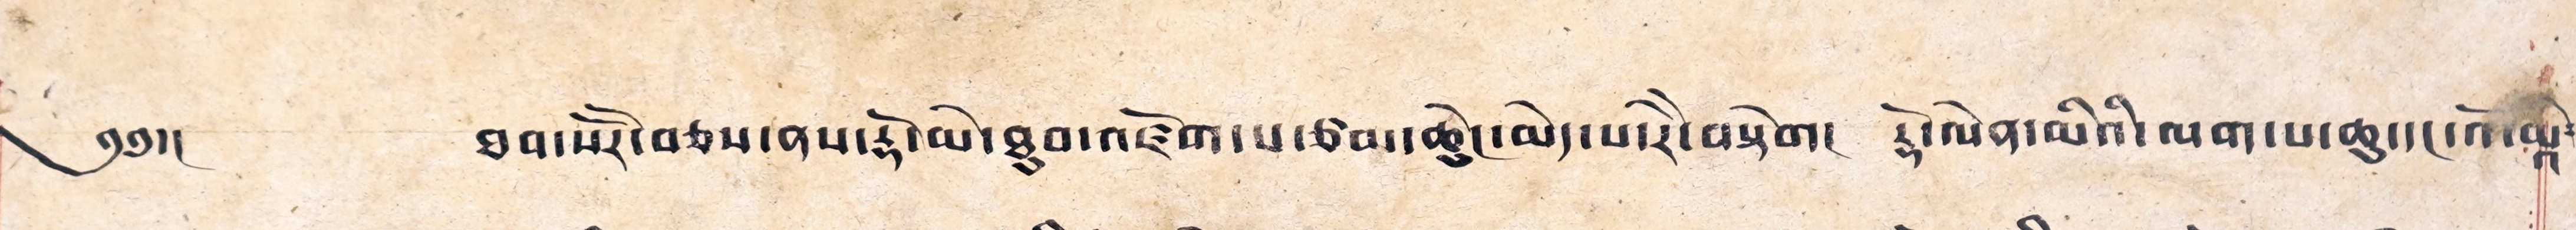༄༅།། ཐབ་སོ་སོར་བཅས་ནས་རྡོ་མེ་ཐུབ་འཛོག་པ་ཙབ་ཆེུང་མེད་པ་རེ་རེ་བསྟེག་༴ རྡོ་ལེན་མིའི་ལག་པ་ཆུ་དང་འོ་མའི༴
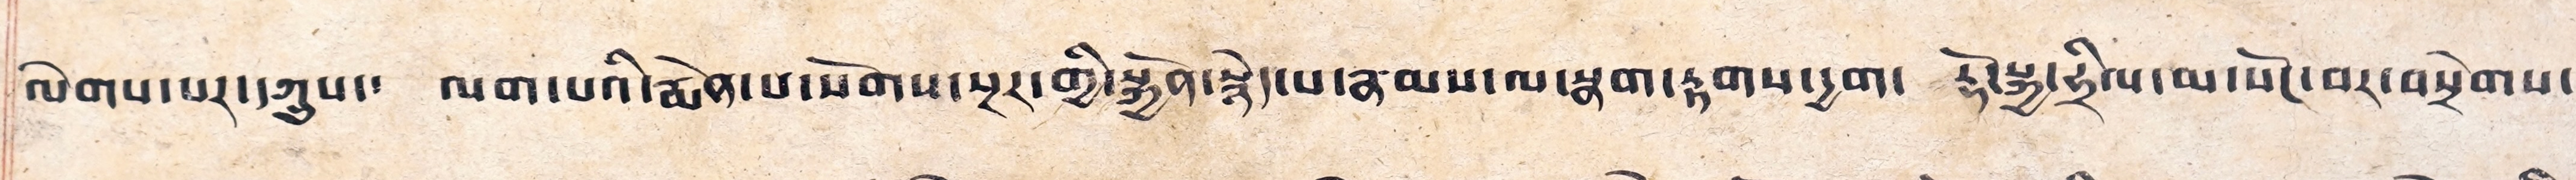ལེགས་པར་དཀྲུས་༴ ལག་པའི་རྨེན་པ་སོགས་སྔར་གྱི་སྐྱོན་སྙེད་པ་རྣམས་ལ་སྣག་རྟགས་དྱག་༴ རྡོ་སྐྱ་ཧྲིལ་མ་སོང་བར་བསྲེགས་
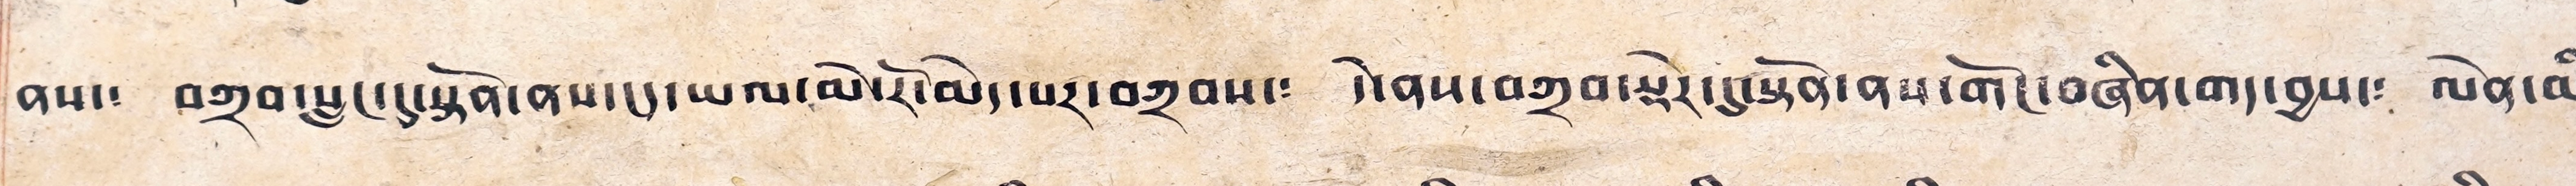ནས་༴ བཀྲབ་སླང་དུ་སྟོན་ནས་ངད་ཡལ་མེ་རོ་མེད་པར་བཀྲབས་༴ དེ་ནས་བཀྲབ་སྡེར་བསྟོན་ནས་གོང་བཞིན་གད་བྱས་༴ ལེན་མི་
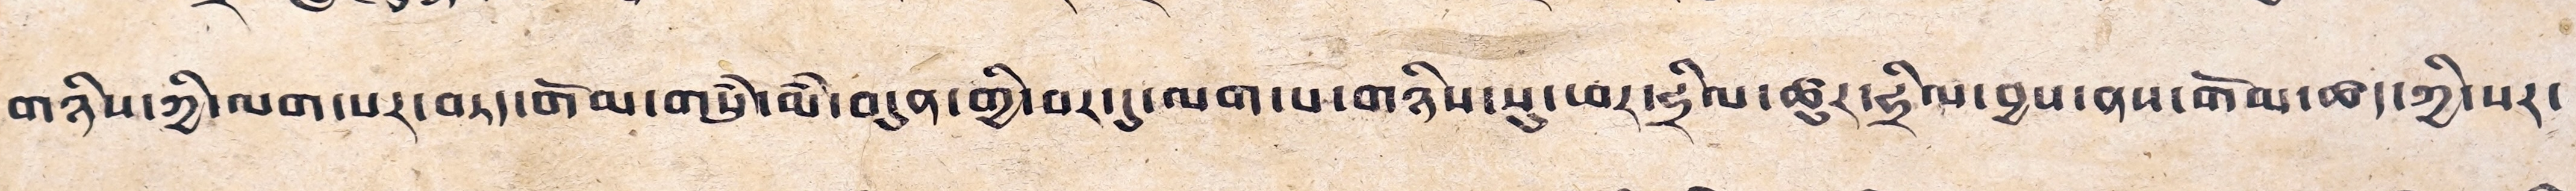གཉིས་ཀྱི་ལག་པར་བཏད་གོམ་གསུཾ་མམ་བདུན་གྱི་བར་དུ་ལག་པ་གཉིས་སུ་ཕར་ཧྲིལ་ཚུར་ཧྲིལ་བྱས་ནས་གོམ་ཚད་ཀྱི་སར་
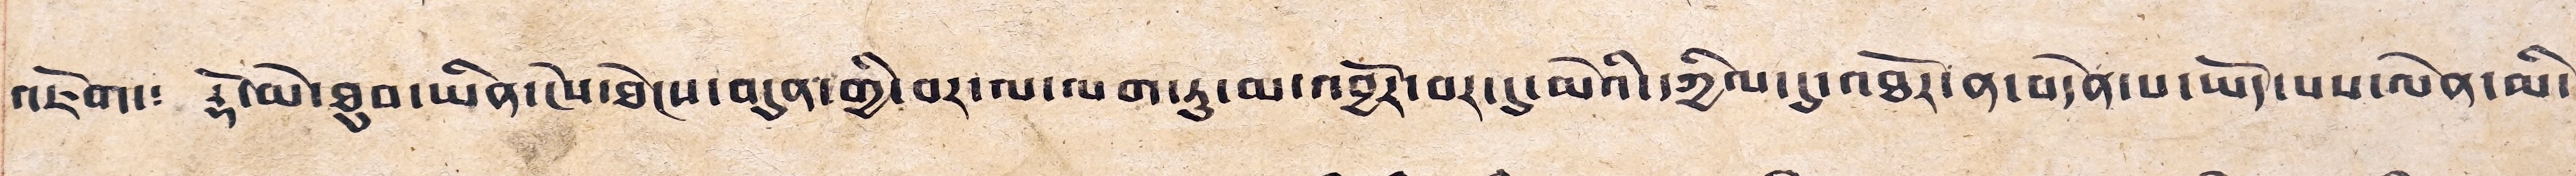འཇོག་༴ རྡོ་མེ་ཐུབ་ཡིན་ངེས་ཐེངས་བདུན་གྱི་བར་ལ་ལག་ཏུ་མ་འབྱོར་བར་དུ་མེའི་དཀྱིལ་དུ་འཐོར་ན་བདེན་པ་ཡོད་པས་ལེན་མི་
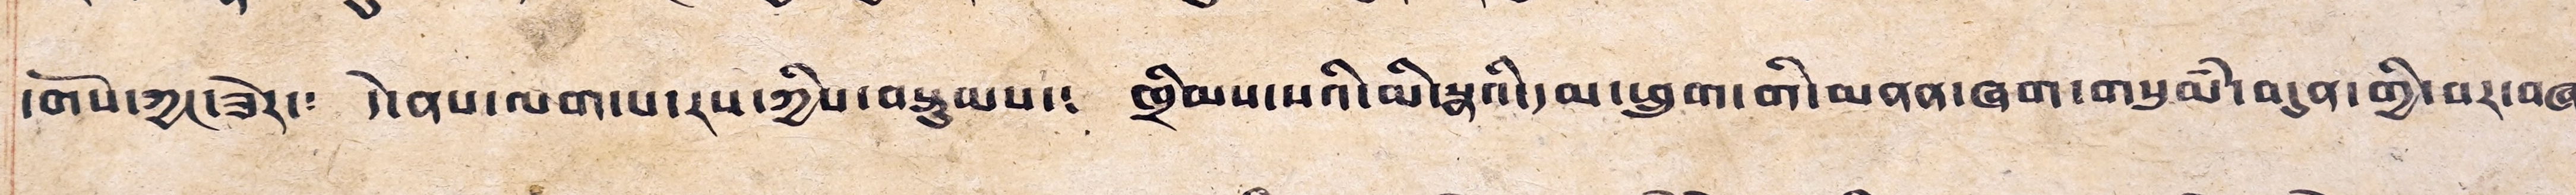དགོས་ཀྱང་ཟེར་༴ དེ་ནས་ལག་པ་རས་ཀྱིས་བསྟུམས་༴ ཁྲིམས་སའི་མི་སྣའི་དམ་ཕྲུག་གི་མནན་ཞག་གསུམ་མམ་བདུན་གྱི་བར་བཞག༴
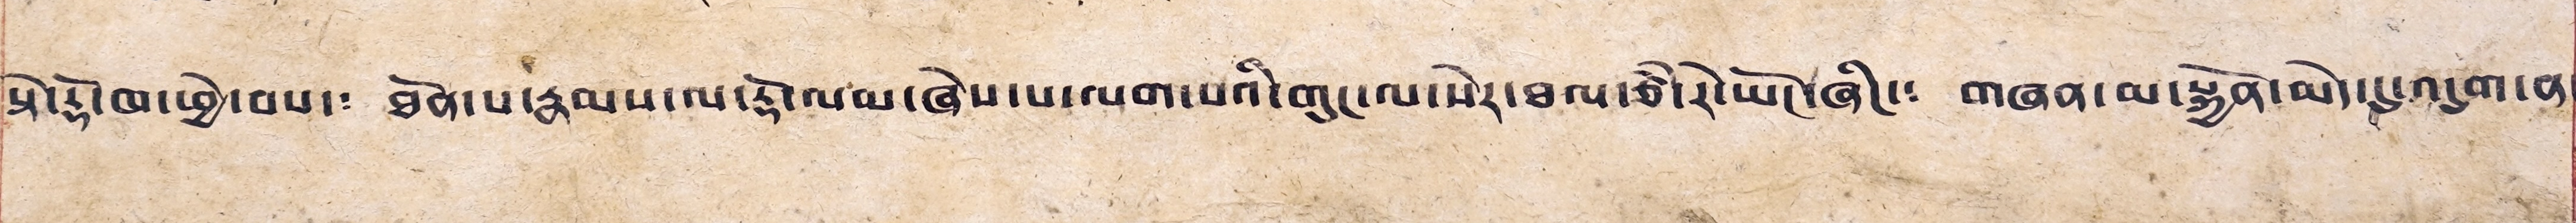སྟེ་རྡོ་ཁ་ཕྱེ་བས་༴ ཐོན་པ་རྣམས་ལ་རྡོ་ལམ་ཞེས་པ་ལག་པའི་གུང་ལ་སེར་ཐལ་ཙམ་རེ་ཡོང་ཞིང་༴ གཞན་མ་སྐྱོན་མེད་དུ་འདུག་ན་
